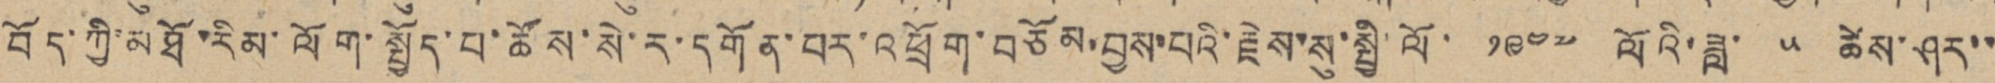བོད་ཀྱི་མཐོ་རིམ་ལོག་སྤྱོད་པ་ཚོས་སེ་ར་དགོན་པར་འཕྲོག་བཅོམ་བྱས་པའི་རྗེས་སུ་སྤྱི་ལོ་ ༡༩༤༧ ལོའི་ཟླ་ ༥ ཚེས་ཤར་་་
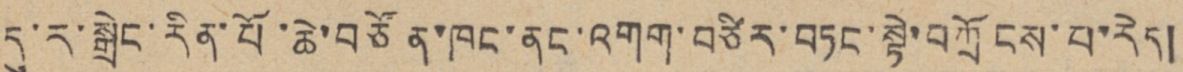དུ་ར་སྒྲེང་རིན་པོ་ཆེ་བཙོན་ཁང་ནང་འགག་བཙིར་བཏང་སྟེ་བཀྲོངས་པ་རེད།
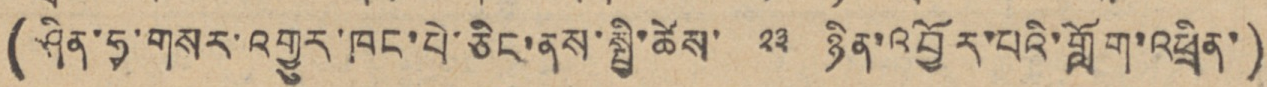(ཤིན་ཧྭ་གསར་འགྱུར་ཁང་པེ་ཅིང་ནས་སྤྱི་ཚེས་ ༢༣ ཉིན་འབྱོར་པའི་གློག་འཕྲིན་)
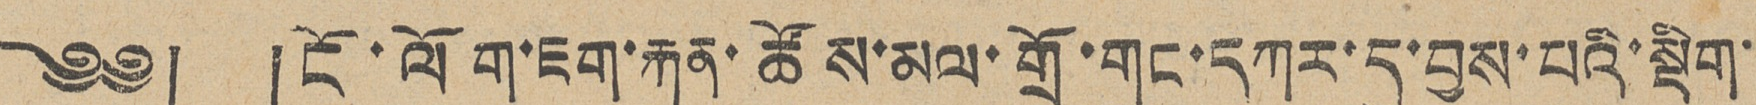༄༅། །ངོ་ལོག་ཇག་རྐུན་ཚོས་མལ་གྲོ་གུང་དཀར་དུ་བྱས་པའི་སྡིག་
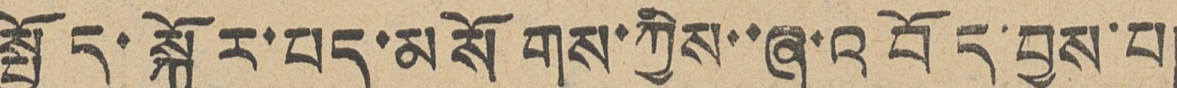སྤྱོད་སྐོར་པད་མ སོགས་ཀྱིས་་ཞུ་འབོད་བྱས་པ།
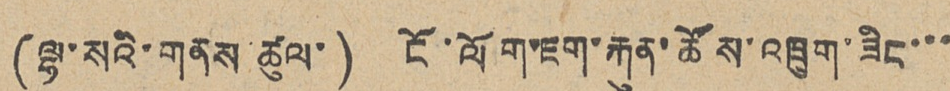(ལྷ་སའི་གནས ཚུལ་) ངོ་ལོག་ཇག་རྐུན་ཚོས་འཁྲུག་ཟིང་་་
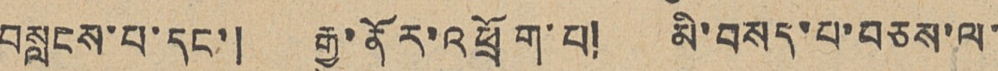བསླངས་པ་དང་། རྒྱུ་ནོར་འཕྲོག་པ། མི་བསད་པ་བཅས་ལ་
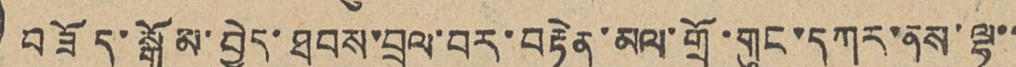བཇོད་སྒོམ་བྱེད་ཐབས་བྲལ་བར་བརྟེན་མལ་གྲོ་གུང་དཀར་ནས་ལྷ་་
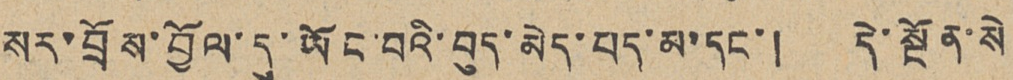སར་བྲོས་བྱོལ་དུ་ཡོང་བའི་བུད་མེད་པད་མ་དང་། དེ་སྔོན་སེ
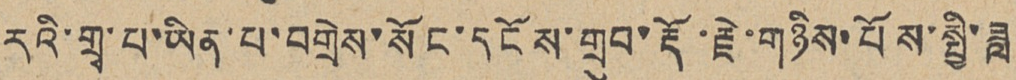རའི་གྲྭ་པ་ཡིན་པ་བགྲེས་སོང་དངོས་གྲུབ་རྡོ་རྗེ་གཉིས་པོས་སྤྱི་ཟླ
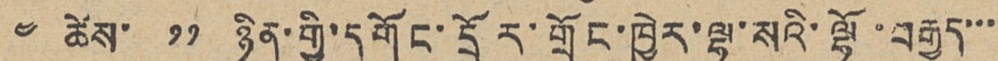༤ ཚེས་ ༡༡ ཉིན་གྱི་དགོང་དྲོར་གྲོང་ཁྱེར་ལྷ་སའི་ལྷོ་བརྒྱུད་་་
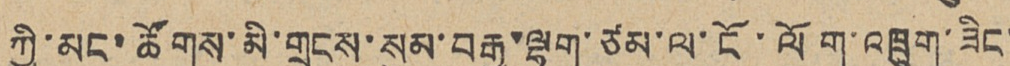ཀྱི་མང་ཚོགས་མི་གྲངས་སུམ་བརྒྱ་ལྷག་ཙམ་ལ་ངོ་ལོག་འཁྲུག་ཟིང་
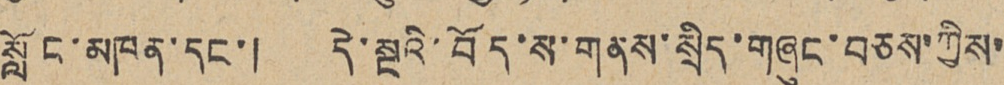སློང་མཁན་དང་། དེ་སྔའི་བོད་ས་གནས་སྲིད་གཞུང་བཅས་ཀྱིས་
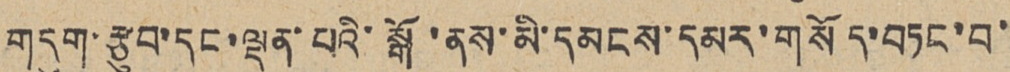གདུག་རྩུབ་དང་ལྡན་པའི་སྒོ་ནས་མི་དམངས་དམར་གསོད་བཏང་བ་
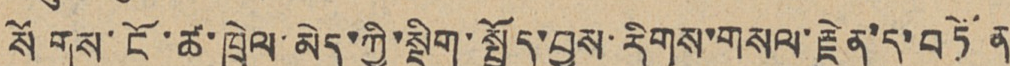སོགས་ངོ་ཚ་ཁྲེལ་མེད་ཀྱི་སྡིག་སྤྱོད་བྱས་རིགས་གསལ་རྗེན་དུ་བཏོན
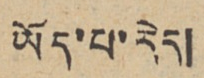ཡོད་པ་རེད།
